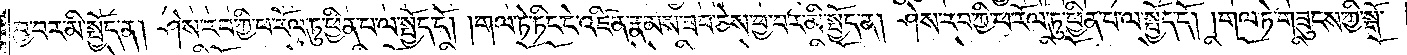བྱ་བར་མི་སྤྱོད་ན། ཤེས་རབ་ཀྱི་ཕ་རོལ་ཏུ་ཕྱིན་པ་ལ་སྤྱོད་དོ། །གལ་ཏེ་ཏིང་ངེ་འཛིན་རྣམས་ཟབ་ཅེས་བྱ་བར་མི་སྤྱོད་ན། ཤེས་རབ་ཀྱི་ཕ་རོལ་ཏུ་ཕྱིན་པ་ལ་སྤྱོད་དོ། །གལ་ཏེ་གཟུངས་ཀྱི་སྒོ་
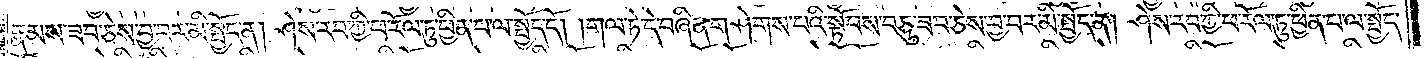རྣམས་ཟབ་ཅེས་བྱ་བར་མི་སྤྱོད་ན། ཤེས་རབ་ཀྱི་ཕ་རོལ་ཏུ་ཕྱིན་པ་ལ་སྤྱོད་དོ། །གལ་ཏེ་དེ་བཞིན་གཤེགས་པའི་སྟོབས་བཅུ་ཟབ་ཅེས་བྱ་བར་མི་སྤྱོད་ན། ཤེས་རབ་ཀྱི་ཕ་རོལ་ཏུ་ཕྱིན་པ་ལ་སྤྱོད་
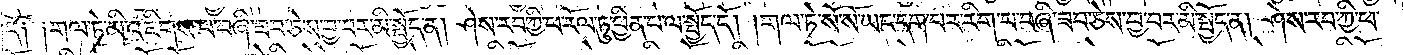དོ༑ ༑གལ་ཏེ་མི་འཇིགས་པ་བཞི་ཟབ་ཅེས་བྱ་བར་མི་སྤྱོད་ན། ཤེས་རབ་ཀྱི་ཕ་རོལ་ཏུ་ཕྱིན་པ་ལ་སྤྱོད་དོ། །གལ་ཏེ་སོ་སོ་ཡང་དག་པར་རིག་པ་བཞི་ཟབ་ཅེས་བྱ་བར་མི་སྤྱོད་ན། ཤེས་རབ་ཀྱི་ཕ་
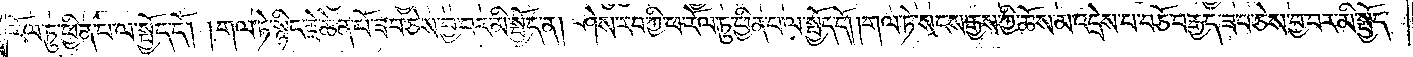རོལ་ཏུ་ཕྱིན་པ་ལ་སྤྱོད་དོ། །གལ་ཏེ་སྙིང་རྗེ་ཆེན་པོ་ཟབ་ཅེས་བྱ་བར་མི་སྤྱོད་ན། ཤེས་རབ་ཀྱི་ཕ་རོལ་ཏུ་ཕྱིན་པ་ལ་སྤྱོད་དོ། །གལ་ཏེ་སངས་རྒྱས་ཀྱི་ཆོས་མ་འདྲེས་པ་བཅོ་བརྒྱད་ཟབ་ཅེས་བྱ་བར་མི་སྤྱོད་
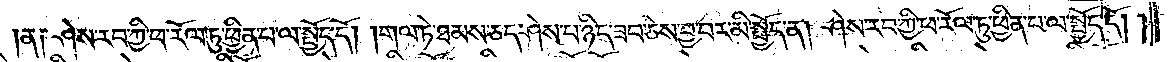ན༑ ཤེས་རབ་ཀྱི་ཕ་རོལ་ཏུ་ཕྱིན་པ་ལ་སྤྱོད་དོ། །གལ་ཏེ་ཐམས་ཅད་ཤེས་པ་ཉིད་ཟབ་ཅེས་བྱ་བར་མི་སྤྱོད་ན། ཤེས་རབ་ཀྱི་ཕ་རོལ་ཏུ་ཕྱིན་པ་ལ་སྤྱོད་དོ། །
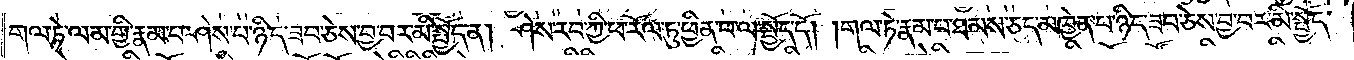གལ་ཏེ་ལམ་གྱི་རྣམ་པ་ཤེས་པ་ཉིད་ཟབ་ཅེས་བྱ་བར་མི་སྤྱོད་ན། ཤེས་རབ་ཀྱི་ཕ་རོལ་ཏུ་ཕྱིན་པ་ལ་སྤྱོད་དོ། །གལ་ཏེ་རྣམ་པ་ཐམས་ཅད་མཁྱེན་པ་ཉིད་ཟབ་ཅེས་བྱ་བར་མི་སྤྱོད་
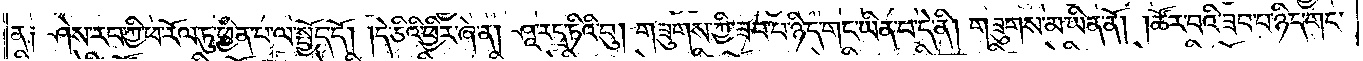ན༑ ཤེས་རབ་ཀྱི་ཕ་རོལ་ཏུ་ཕྱིན་པ་ལ་སྤྱོད་དོ། །དེ་ཅིའི་ཕྱིར་ཞེ་ན། ཤཱ་རདྭ་ཏིའི་བུ། གཟུགས་ཀྱི་ཟབ་པ་ཉིད་གང་ཡིན་པ་དེ་ནི། གཟུགས་མ་ཡིན་ནོ། །ཚོར་བའི་ཟབ་པ་ཉིད་གང་
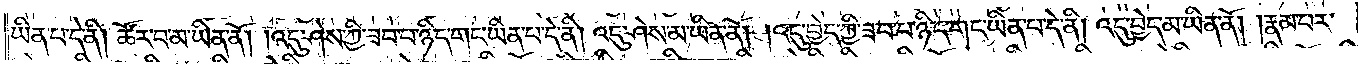ཡིན་པ་དེ་ནི། ཚོར་བ་མ་ཡིན་ནོ། །འདུ་ཤེས་ཀྱི་ཟབ་པ་ཉིད་གང་ཡིན་པ་དེ་ནི། འདུ་ཤེས་མ་ཡིན་ནོ། །འདུ་བྱེད་ཀྱི་ཟབ་པ་ཉིད་གང་ཡིན་པ་དེ་ནི། འདུ་བྱེད་མ་ཡིན་ནོ། །རྣམ་པར་
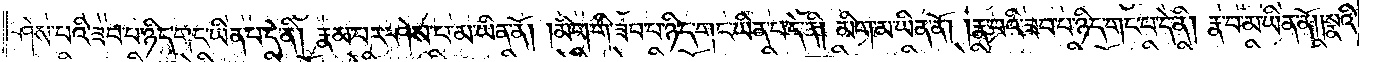ཤེས་པའི་ཟབ་པ་ཉིད་གང་ཡིན་པ་དེ་ནི། རྣམ་པར་ཤེས་པ་མ་ཡིན་ནོ། །མིག་གི་ཟབ་པ་ཉིད་གང་ཡིན་པ་དེ་ནི། མིག་མ་ཡིན་ནོ། །རྣ་བའི་ཟབ་པ་ཉིད་གང་ཡིན་པ་དེ་ནི། རྣ་བ་མ་ཡིན་ནོ། །སྣའི་
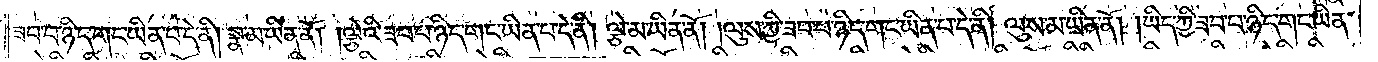ཟབ་པ་ཉིད་གང་ཡིན་པ་དེ་ནི། སྣ་མ་ཡིན་ནོ། །ལྕེའི་ཟབ་པ་ཉིད་གང་ཡིན་པ་དེ་ནི། ལྕེ་མ་ཡིན་ནོ། །ལུས་ཀྱི་ཟབ་པ་ཉིད་གང་ཡིན་པ་དེ་ནི། ལུས་མ་ཡིན་ནོ། །ཡིད་ཀྱི་ཟབ་པ་ཉིད་གང་ཡིན་
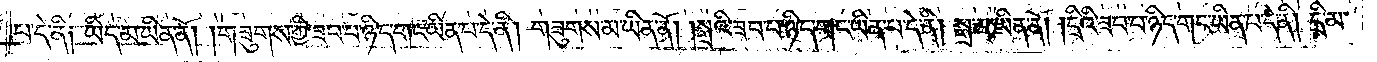པ་དེ་ནི༑ ཡིད་མ་ཡིན་ནོ། །གཟུགས་ཀྱི་ཟབ་པ་ཉིད་གང་ཡིན་པ་དེ་ནི། གཟུགས་མ་ཡིན་ནོ། །སྒྲའི་ཟབ་པ་ཉིད་གང་ཡིན་པ་དེ་ནི། སྒྲ་མ་ཡིན་ནོ། །དྲིའི་ཟབ་པ་ཉིད་གང་ཡིན་པ་དེ་ནི། དྲི་མ་
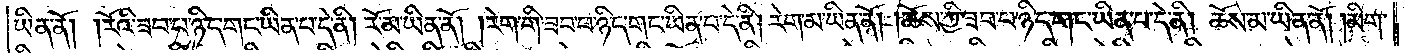ཡིན་ནོ། །རོའི་ཟབ་པ་ཉིད་གང་ཡིན་པ་དེ་ནི། རོ་མ་ཡིན་ནོ། །རེག་གི་ཟབ་པ་ཉིད་གང་ཡིན་པ་དེ་ནི། རེག་མ་ཡིན་ནོ། །ཆོས་ཀྱི་ཟབ་པ་ཉིད་གང་ཡིན་པ་དེ་ནི། ཆོས་མ་ཡིན་ནོ། །མིག་
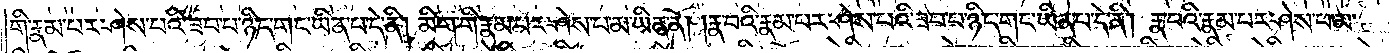གི་རྣམ་པར་ཤེས་པའི་ཟབ་པ་ཉིད་གང་ཡིན་པ་དེ་ནི། མིག་གི་རྣམ་པར་ཤེས་པ་མ་ཡིན་ནོ། །རྣ་བའི་རྣམ་པར་ཤེས་པའི་ཟབ་པ་ཉིད་གང་ཡིན་པ་དེ་ནི། རྣ་བའི་རྣམ་པར་ཤེས་པ་མ་
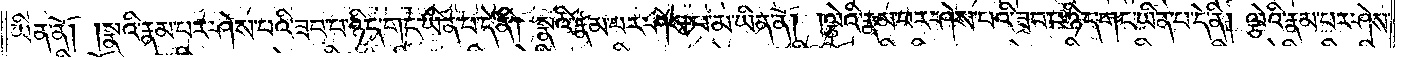ཡིན་ནོ། །སྣའི་རྣམ་པར་ཤེས་པའི་ཟབ་པ་ཉིད་གང་ཡིན་པ་དེ་ནི། སྣའི་རྣམ་པར་ཤེས་པ་མ་ཡིན་ནོ། །ལྕེའི་རྣམ་པར་ཤེས་པའི་ཟབ་པ་ཉིད་གང་ཡིན་པ་དེ་ནི། ལྕེའི་རྣམ་པར་ཤེས་
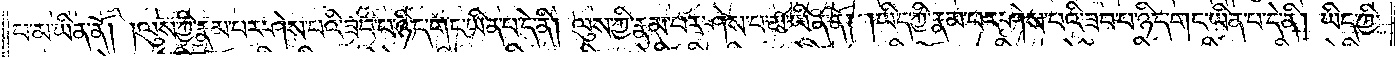པ་མ་ཡིན་ནོ། །ལུས་ཀྱི་རྣམ་པར་ཤེས་པའི་ཟབ་པ་ཉིད་གང་ཡིན་པ་དེ་ནི། ལུས་ཀྱི་རྣམ་པར་ཤེས་པ་མ་ཡིན་ནོ། །ཡིད་ཀྱི་རྣམ་པར་ཤེས་པའི་ཟབ་པ་ཉིད་གང་ཡིན་པ་དེ་ནི། ཡིད་ཀྱི་
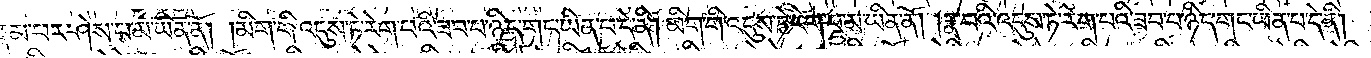རྣམ་པར་ཤེས་པ་མ་ཡིན་ནོ། །མིག་གི་འདུས་ཏེ་རེག་པའི་ཟབ་པ་ཉིད་གང་ཡིན་པ་དེ་ནི། མིག་གི་འདུས་ཏེ་རེག་པ་མ་ཡིན་ནོ། །རྣ་བའི་འདུས་ཏེ་རེག་པའི་ཟབ་པ་ཉིད་གང་ཡིན་པ་དེ་ནི།
